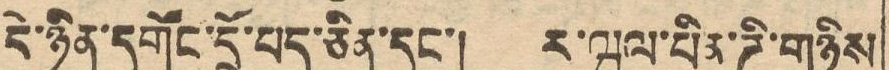དེ་ཉིན་དགོང་དྲོ་པད་ཅིན་དང་། ར་ཝལ་པིན་ཌི་གཉིས
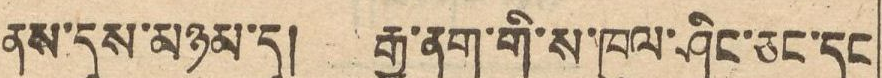ནས་དུས་མཉམ་དུ། རྒྱ་ནག་གི་ས་ཁུལ་ཤིང་ཅང་དང
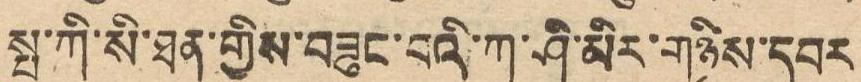སྤ་ཀི་སི་ཐན་གྱིས་བཟུང་བའི་ཀ་ཤི་མིར་གཉིས་དབར
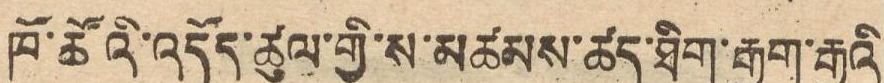ཁོ་ཚོའི་འདོད་ཚུལ་གྱི་ས་མཚམས་ཚད་ཐིག་རྒྱག་རྒྱུའི་
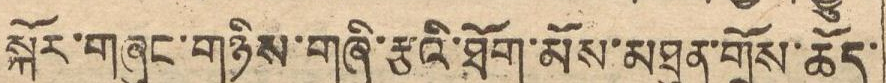སྐོར་གཞུང་གཉིས་གཞི་རྩའི་ཐོག་མོས་མཐུན་གྲོས་ཆོད་
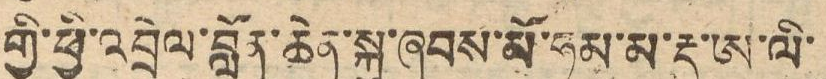གྱི་ཕྱི་འབྲེལ་བློན་ཆེན་སྐུ་ཞབས་མོ་ཧམ་མ་རྡ་ཨ་ལི་
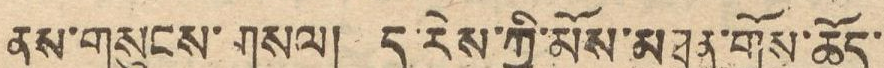ནས་གསུངས་གསལ། ད་རེས་ཀྱི་མོས་མཐུན་གྲོས་ཆོད་
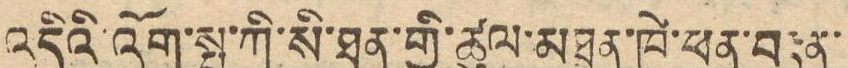འདིའི་འོག་སྤ་ཀི་སི་ཐན་ཀྱི་ཚུལ་མཐུན་ཁེ་ཕན་བརྟན་
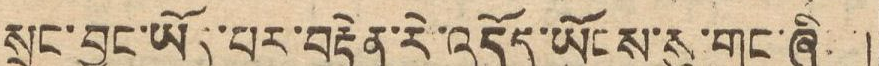སྲུང་བྱུང་ཡོད་པར་བརྟེན་རེ་འདོད་ཡོངས་སུ་གང་ཞི །
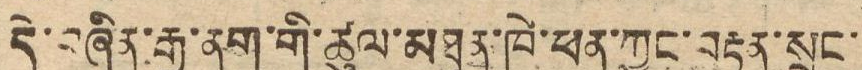དེ་བཞིན་རྒྱ་ནག་གི་ཚུལ་མཐུན་ཁེ་ཕན་ཀྱང་བརྟན་སྲུང་
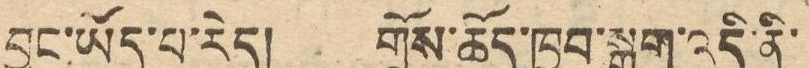བྱུང་ཡོད་པ་རེད། གྲོས་ཆོད་ཁྱབ་སྒྲག་འདི་ནི་
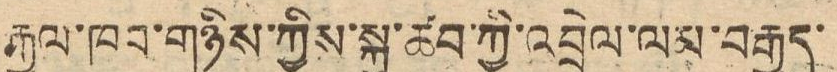རྒྱལ་ཁབ་གཉིས་ཀྱིས་སྐུ་ཚབ་ཀྱི་འབྲེལ་ལམ་བརྒྱུད་
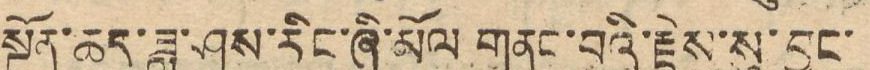སྔོན་ཆད་ཟླ་ཤས་རིང་ཞི་མོལ གནང་བའི་རྗེས་སུ་བྱུང་
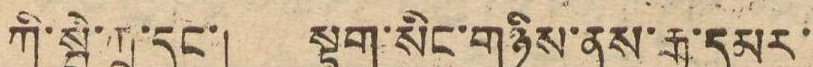ཀི་སྦེ་ཀྲུ་དང་། སྟག་སིང་གཉིས་ནས་རྒྱ་དམར་
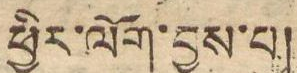ཕྱིར་ལོག་བྱས་པ།
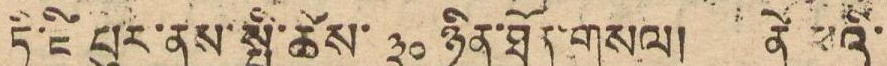ཏི་ཛི་པུར་ནས་སྤྱི་ཚེས་ ༣༠ ཉིན་ཐོན་གསལ། ནེ་ཕའི་
